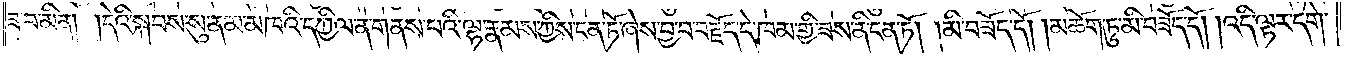ཟ་བ་མིན། །དེའི་སྐབས་སུ་ནམ་མཁའི་དཀྱིལ་ན་གནས་པའི་ལྷ་རྣམས་ཀྱིས་ངན་ཏོ་ཞེས་བྱ་བ་བརྗོད་དེ་ཁམ་གྱི་ཟས་ནི་ངན་ཏོ། །མི་བཟོད་དོ། །མཆོག་ཏུ་མི་བཟོད་དོ། །འདི་ལྟར་དགེ་
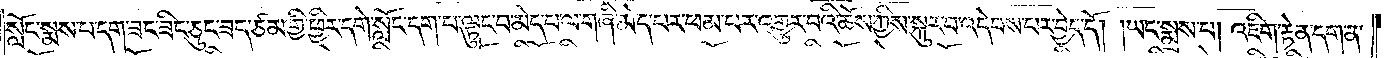སློང་སྨས་པ་དག་ཟང་ཟིང་ཅུང་ཟད་ཙམ་གྱི་ཕྱིར་དགེ་སློང་དག་པ་ལྟུང་བ་མེད་པ་ལ་གཞི་མེད་པར་ཕམ་པར་འགྱུར་བའི་ཆོས་ཀྱིས་སྐུར་བ་འདེབས་པར་བྱེད་དོ། །ཡང་སྨྲས་པ། འཇིག་རྟེན་དག་ན་
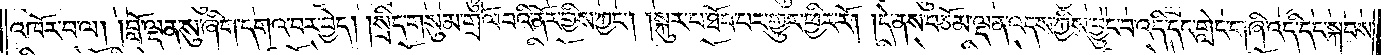འཁོར་བ་ལ། །བློ་ལྡན་སུ་ཞིག་དགའ་བར་བྱེད། །སྲིད་གསུམ་གྲོལ་བའི་ནོར་གྱིས་ཀྱང༌། །སྐུར་པ་ཐོབ་པར་གྱུར་ཕྱིར་རོ། །དེ་ནས་བཅོམ་ལྡན་འདས་ཀྱིས་བྱུང་བ་འདི་དང་གླེང་གཞི་འདི་དང་སྐབས་
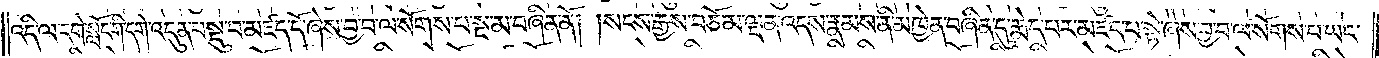འདི་ལ་དགེ་སློང་གི་དགེ་འདུན་བསྡུ་བ་མཛད་དོ་ཞེས་བྱ་བ་ལ་སོགས་པ་སྔ་མ་བཞིན་ནོ། །སངས་རྒྱས་བཅོམ་ལྡན་འདས་རྣམས་ནི་མཁྱེན་བཞིན་དུ་རྨེད་པར་མཛད་པ་སྟེ་ཞེས་བྱ་བ་ལ་སོགས་པ་ཡང་
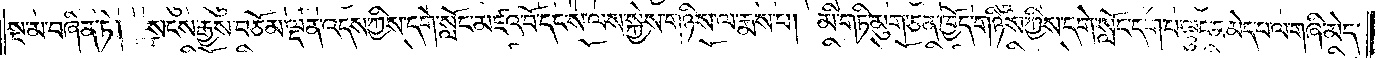སྔ་མ་བཞིན་ཏེ། སངས་རྒྱས་བཅོམ་ལྡན་འདས་ཀྱིས་དགེ་སློང་མཛའ་བོ་དང་ས་ལས་སྐྱེས་གཉིས་ལ་རྨས་པ། མི་གཏི་མུག་ཅན་ཁྱོད་གཉིས་ཀྱིས་དགེ་སློང་དག་པ་ལྟུང་བ་མེད་པ་ལ་གཞི་མེད་
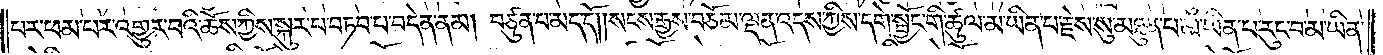པར་ཕམ་པར་འགྱུར་བའི་ཆོས་ཀྱིས་སྐུར་པ་བཏབ་པ་བདེན་ནམ། བཙུན་པ་མད་དོ། །སངས་རྒྱས་བཅོམ་ལྡན་འདས་ཀྱིས་དགེ་སྦྱོང་གི་ཚུལ་མ་ཡིན་པ་རྗེས་སུ་མཐུན་པ་མ་ཡིན་པ་རུང་བ་མ་ཡིན་
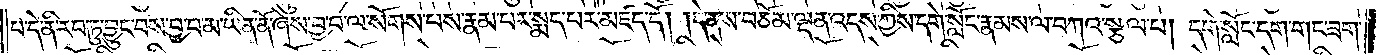པ་དེ་ནི་རབ་ཏུ་བྱུང་བས་བྱ་བ་མ་ཡིན་ནོ་ཞེས་བྱ་བ་ལ་སོགས་པས་རྣམ་པར་སྨད་པར་མཛད་དོ། །དེ་ནས་བཅོམ་ལྡན་འདས་ཀྱིས་དགེ་སློང་རྣམས་ལ་བཀའ་སྩལ་པ། དགེ་སློང་དག་གང་ཟག་
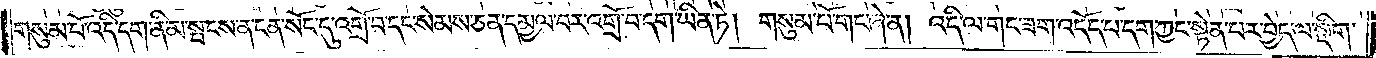གསུམ་པོ་འདི་དག་ནི་མ་སྤངས་ན་ངན་སོང་དུ་འགྲོ་བ་དང་སེམས་ཅན་དམྱལ་བར་འགྲོ་བ་དག་ཡིན་ཏེ། གསུམ་པོ་གང་ཞེ་ན། འདི་ལ་གང་ཟག་འདོད་པ་དག་ཀྱང་སྟེན་པར་བྱེད་ལ་སྡིག་
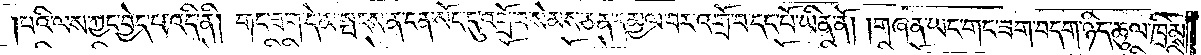པའི་ལས་ཀྱང་བྱེད་པ་འདི་ནི། གང་ཟག་དེ་མ་སྤངས་ན་ངན་སོང་དུ་འགྲོ་བ་སེམས་ཅན་དམྱལ་བར་འགྲོ་བ་དང་པོ་ཡིན་ནོ། །གཞན་ཡང་གང་ཟག་བདག་ཉིད་ཚུལ་ཁྲིམས་
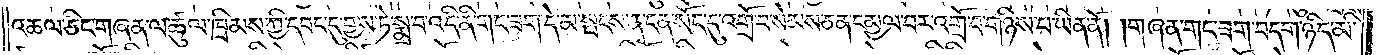འཆལ་ཅིང་གཞན་ལ་ཚུལ་ཁྲིམས་ཀྱི་དབང་དུ་བྱས་ཏེ་སྨྲ་བ་འདི་ནི་གང་ཟག་དེ་མ་སྤངས་ན་ངན་སོང་དུ་འགྲོ་བ་སེམས་ཅན་དམྱལ་བར་འགྲོ་བ་གཉིས་པ་ཡིན་ནོ། །གཞན་གང་ཟག་བདག་ཉིད་མི་
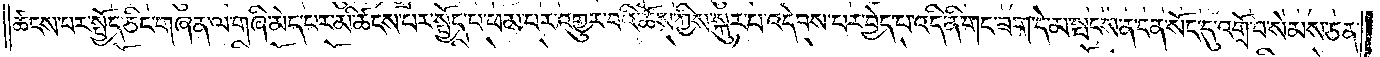ཚངས་པར་སྤྱོད་ཅིང་གཞན་ལ་གཞི་མེད་པར་མི་ཚངས་པར་སྤྱོད་པ་ཕམ་པར་འགྱུར་བའི་ཆོས་ཀྱིས་སྐུར་བ་འདེབས་པར་བྱེད་པ་འདི་ནི་གང་ཟག་དེ་མ་སྤངས་ན་ངན་སོང་དུ་འགྲོ་བ་སེམས་ཅན་
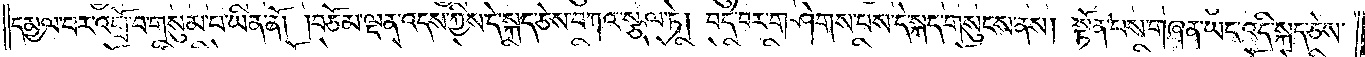དམྱལ་བར་འགྲོ་བ་གསུམ་པ་ཡིན་ནོ། །བཅོམ་ལྡན་འདས་ཀྱིས་དེ་སྐད་ཅེས་བཀའ་སྩལ་ཏེ། བདེ་བར་གཤེགས་པས་དེ་སྐད་གསུངས་ནས། སྟོན་པས་གཞན་ཡང་འདི་སྐད་ཅེས་
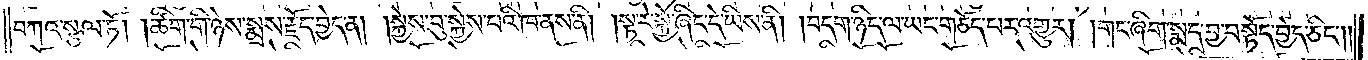བཀའ་སྩལ་ཏོ། །ཚིག་གི་ཉེས་སྨྲས་རྗོད་བྱེད་ན། །སྐྱེས་བུ་སྐྱེས་པའི་ཁ་ནས་ནི། །སྟ་རེ་སྐྱེ་ཞིང་དེ་ཡིས་ནི། །བདག་ཉིད་ལ་ཡང་གཅོད་པར་འགྱུར། །གང་ཞིག་སྨད་བྱ་བསྟོད་བྱེད་ཅིང༌༎
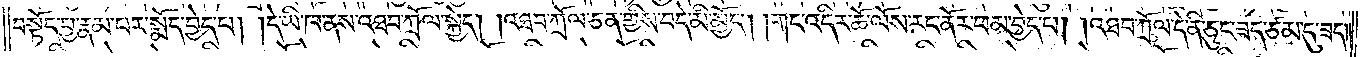བསྟོད་བྱ་རྣམ་པར་སྨོད་བྱེད་པ། །དེ་ཡི་ཁ་ནས་འཐབ་ཀྲོལ་སྐྱེད། །འཐབ་གྲོལ་ཅན་གྱིས་བདེ་མི་མྱོང༌། །གང་འདིར་ཆོ་ལོས་རང་ནོར་ཕམ་བྱེད་པ། །འཐབ་ཀྲོལ་དེ་ནི་ཅུང་ཟད་ཙམ་དུ་ཟད༎
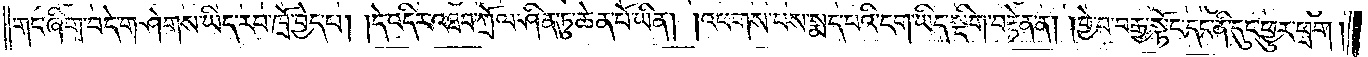གང་ཞིག་བདེ་གཤེགས་ཡིད་རབ་ཁྲོ་བྱེད་པ། །དེ་འདིར་འཐབ་ཀྲོལ་ཤིན་ཏུ་ཆེན་པོ་ཡིན། །འཕགས་པས་སྨད་པའི་ངག་ཡིད་སྡིག་བརྟེན་ན། །བྱེ་བ་བརྒྱ་སྟོང་དང་ནི་དུང་ཕྱུར་ཕྲག །
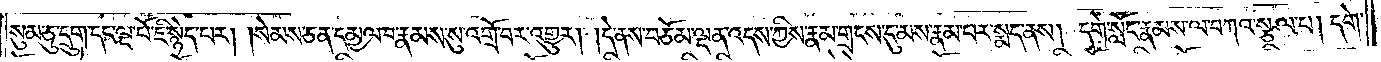སུམ་ཅུ་དྲུག་དང་ལྔ་པོ་ཇི་སྙེད་པར། །སེམས་ཅན་དམྱལ་བ་རྣམས་སུ་འགྲོ་བར་འགྱུར། །དེ་ནས་བཅོམ་ལྡན་འདས་ཀྱིས་རྣམ་གྲངས་དུ་མས་རྣམ་པར་སྨད་ནས། དགེ་སློང་རྣམས་ལ་བཀའ་སྩལ་པ། དགེ་
